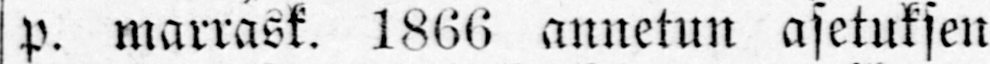p. marrask. 1866 annetun asetuksen
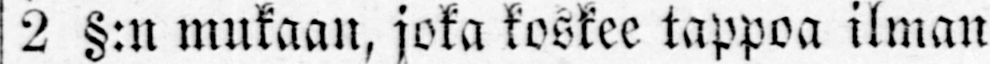12 §:n mukaan, joka koskee tappoa ilman
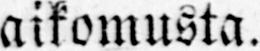aikomusta.
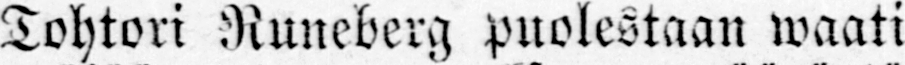Tohtori Runeberg puolestaan waati
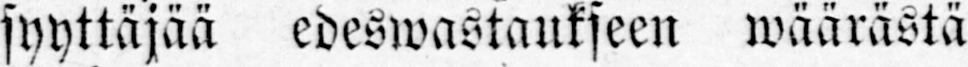syyttäjää edeswastaukseen wäärästä
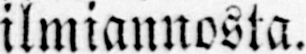ilmiannosta.
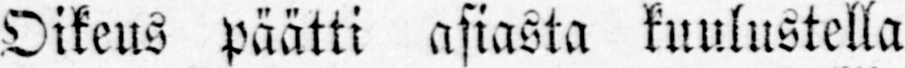Oikeus päätti asiasta kuulustella
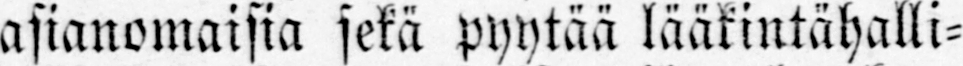asianomaisia sekä pyytää lääkintähalli-
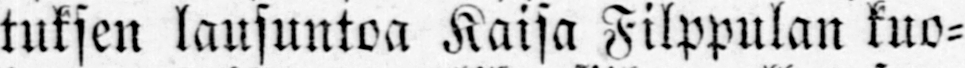tuksen lausuntoa Kaisa Filppulan kuo-
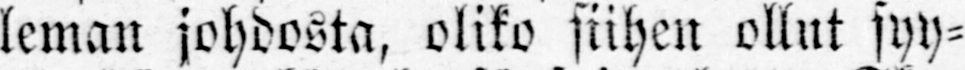leman johdosta, oliko siihen ollut syy-
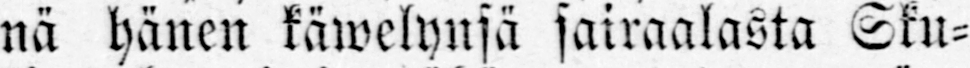nä hänen käwelynsä sairaalasta Sku-
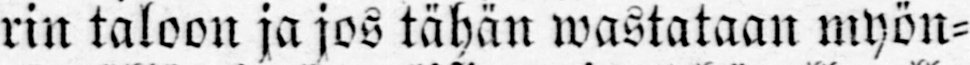rin taloon ja jos tähän wastataan myön-
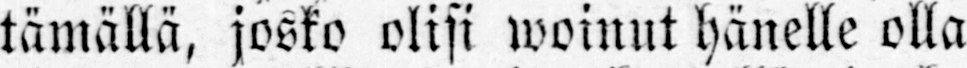tämällä, josko olisi woinut hänelle olla
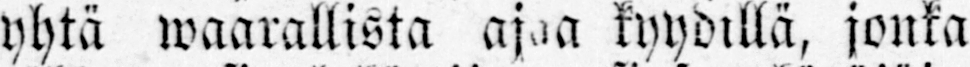yhtä waarallista ajaa kyydillä, jonka
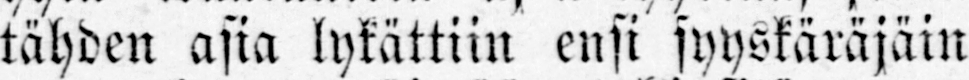tähden asia lykättiin ensi syyskäräjäin
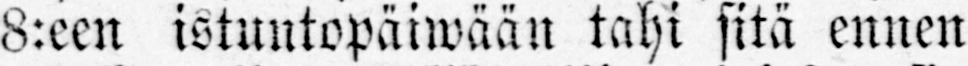8:een istuntopäiwään tahi sitä ennen
